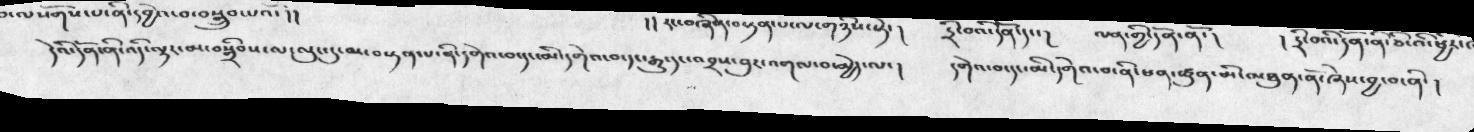དེའི་དོན་ནི་འདི་ལྟར་མ་བསྒྲིབས་ལ་ལུང་དུ་མ་བསྟན་པ་ནི་དགེའ་བ་དང་མི་དགེའ་བ་དང་རྒྱུ་དང་འབྲས་བུར་འགལ་བ་མྱེད་ལ།   དགེའ་བ་དང་མི་དགེའ་བ་ནི་ཕན་ཚུན་མི་མཐུན་ནོ་ཞེས་བྱ་བ་ནི་།
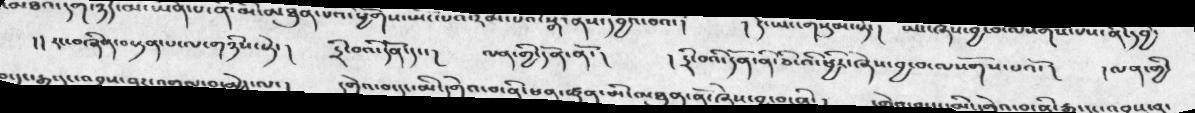།། རང་བཞིིན་བསྟན་པ་ལ་གཉིས་སྟེ་།   དྲི་བའི་དོན་དང་།   ལན་གྱི་དོན་ནོ་།    ། དྲི་བའི་དོན་ནི་ཅི་འི་ཕྱིར་ཞེས་བྱ་བ་ལསོགས་པའོ་།  །ལན་གྱི་
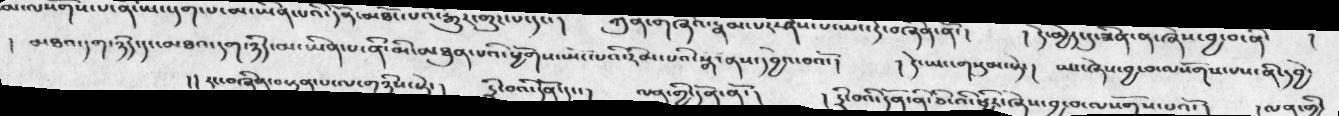། མཐའ་དག་ཉིད་དང་མཐའ་དག་ཉིད་མ་ཡིན་པ་ནི་མི་མཐུན་པའི་ཕྱོགས་ཡོང་པའི་རིམ་པའི་སྒོ་ནས་དབྱེའ་བའོ་།  ། དེ་ཡང་གསུམ་སྟེ་།  སྤང་ཞེས་བྱ་བ་ལསོགས་པས་ནི་དབྱེ་
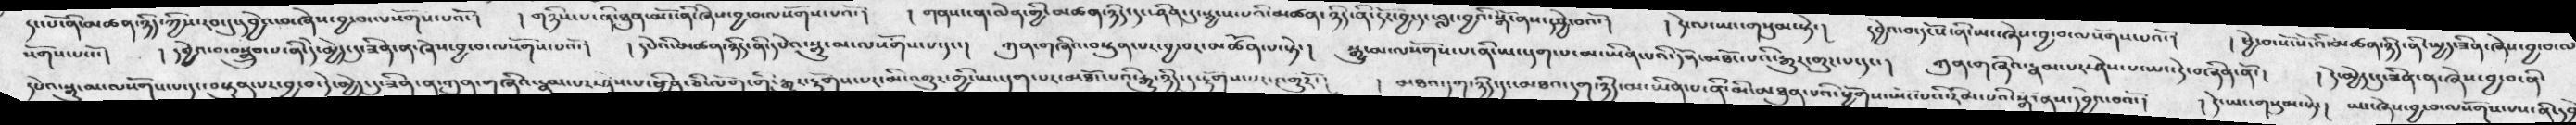སོགས་པའོ་།  ། དབྱེའ་བ་བསྒྲུབ་པ་ནི་དེ་མྱེད་དུ་ཟིན་ན་ཞེས་བྱ་བ་ལསོགས་པའོ་།  ། དཔེའི་མཚན་ཉིད་ནི་དཔེའ་སྒྱུ་མ་ལསོགས་པ་དང་། ཀུན་གཞིའ་བསྟུན་པར་བྱ་བར་མཚོན་པ་སྟེ་།  སྒྱུ་མ་ལསོགས་པ་ནི་ཡང་དག་པ་མ་ཡིན་པའི་དོན་མཐོང་པའི་རྒྱུར་གུར་པ་དང་།  ཀུན་གཞིའ་རྣམ་པར་ཤེས་པ་ཡང་དེ་བཞིན་ནོ་།  ། དེ་མྱེད་དུ་ཟིན་ན་ཞེས་བྱ་བ་ནི་
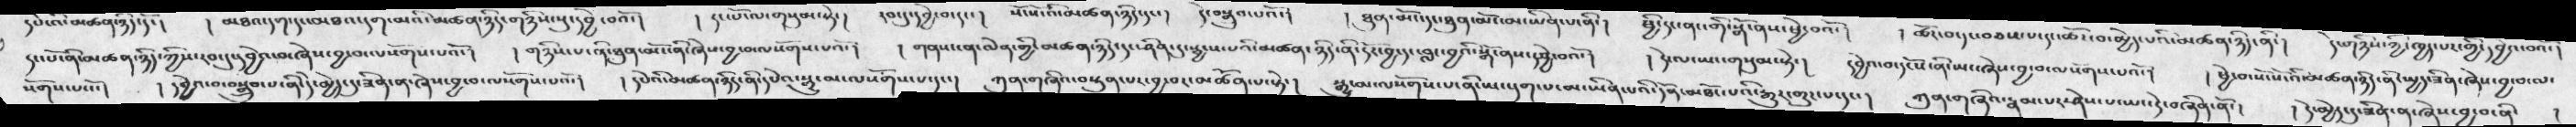དང་པོ་ནི་མཚན་ཉིད་ཀྱིས་རབ་དུ་དབྱེའ་མཞེས་བྱ་བ་ལསོགས་པའོ་།  ། གཉིས་པ་ནི་ཐུན་མོང་ནི་ཞེས་བྱ་བ་ལསོགས་པའོ་།  ། གནས་ན་ལེན་གྱི་མཚན་ཉིད་དང་ཤིན་ཏུ་སྐྱངས་པའི་མཚན་ཉིད་ནི་ཏོང་བྱ་དང་བླ་བྱའི་སྒོ་ནས་དབྱེ་བའོ་།  ། དེ་ལ་ཡང་གསུམ་སྟེ་།  །བྱེའ་བ་དངོས་ཡང་ཞེས་བྱ་བ་ལསོགས་པའོ་།  ། ཕྱེ་བ་སོ་སོ་འི་མཚན་ཉིད་ནི་སྤྱད་ཟིན་ཞེས་བྱ་བ་ལ་
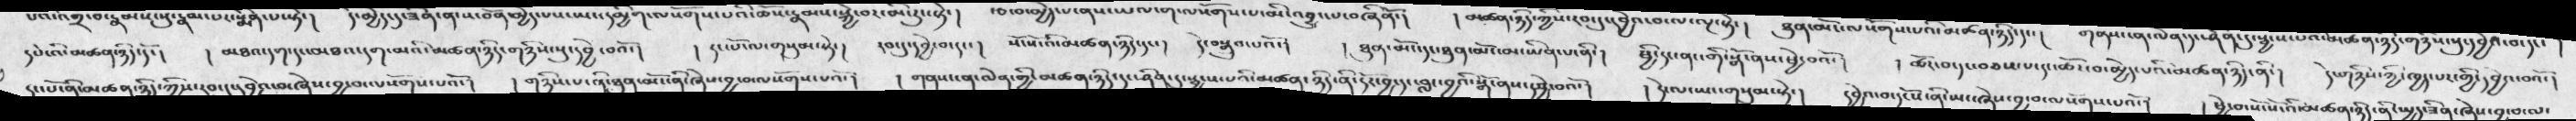དཔེའི་མཚན་ཉིད་དོ་།  ། མཐའ་དག་དང་མཐའ་དག་མའི་མཚན་ཉིད་གཉིས་སུ་དབྱེ་བའོ་།  ། དང་པོ་ལ་གསུམ་སྟེ་།  དབང་དུ་དབྱེ་བ་དང་།  སོ་སོ་འི་མཚན་ཉིད་དང་།  དེ་བསྒྲུབ་པའོ་།  ། ཐུན་མོང་དང་ཐུན་མོང་མ་ཡིན་པ་ནི་།  ཕྱི་དང་ནང་གི་སྒོ་ནས་ཕྱེ་བའོ་།  ། ཚོར་བ་དང་བཅས་པ་དང་ཚོར་བ་མྱེད་པའི་མཚན་ཉིད་ནི་།   དེ་གཉིས་ཀྱི་ཁྱད་པར་གྱི་དབྱེའ་བའོ་།
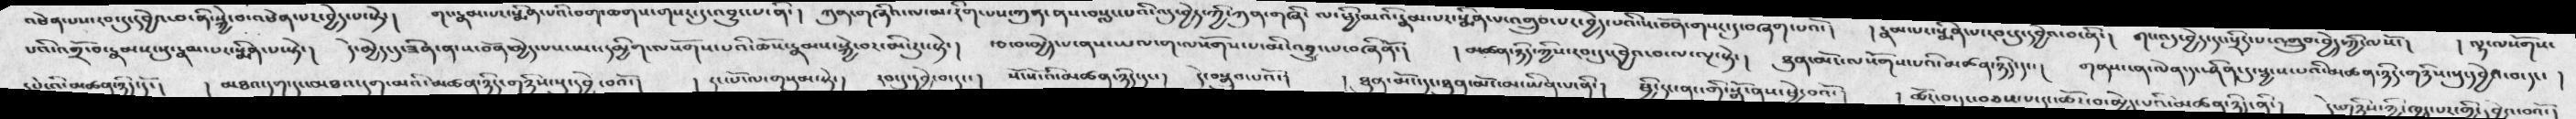པའི་འགྲོ་བ་རྣམས་སུ་རྣམ་པར་སྨིན་པ་སྟེ་།    དེ་མྱེད་དུ་ཟིན་ན་ས་བོན་མྱེད་པས་ཡང་དམྱིག་ལསོགས་པའི་ཆོས་རྣམས་སྐྱེ་བར་མི་རུང་སྟེ་།   རྩ་བ་མྱེད་པ་ནས་ཡལ་ག་ལསོགས་པ་མི་འབྱུང་པ་བཞིནོ་།   ། མཚན་ཉིད་གྱིས་རབ་ངུ་དབྱེའ་བ་ལ་ལྔ་སྟེ་།   ཐུན་མོང་ལསོགས་པའི་མཚན་ཉིད་དང་།   གནས་ངན་ལེན་དང་ཤིན་དུ་སྦྱངས་པའི་མཚན་ཉིད་གཉིས་སུ་དབྱེའ་བ་དང་  །
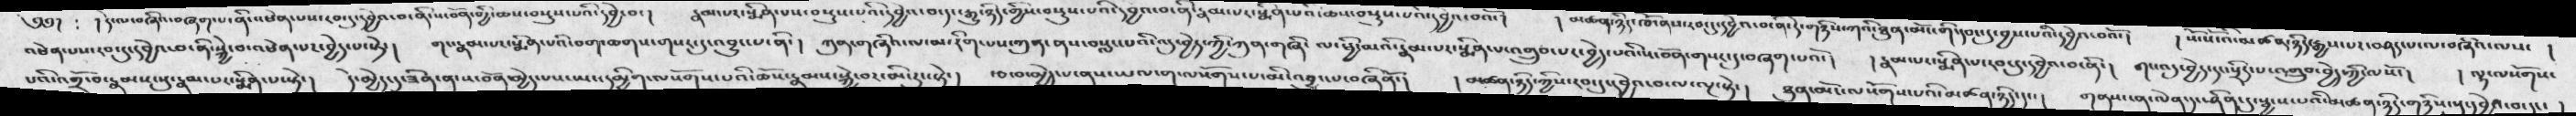འཕེན་པས་དབང་དུ་དབྱེའ་བ་ནི་སྐྱེ་བ་འཕེན་པར་བྱེད་པ་སྟེ་།  གང་རྣམ་པར་སྨིན་པའི་བག་ཆགས་གསར་དུ་འབྱུང་པ་ནི་།  ཀུན་གཞིའ་ལ་མ་རིག་པས་ཀུན་ནས་བསླང་པའི་འདུ་བྱེད་ཀྱི་ཀུན་གཞི་ལ་ཕྱི་མའི་རྣམ་པར་སྨིན་པར་འགྲུབ་པར་བྱེདཔའི་ས་བོན་གསར་དུ་བཞག་པའོ་།   ། རྣམ་པར་སྨིན་པ་རབ་དུ་དབྱེའ་བ་ནི་།  གང་འདུ་བྱེད་དང་སྲིད་པ་འགྲུབ་བྱེད་ཀྱི་ལསོ་།   ། ལྷ་ལསོགས་
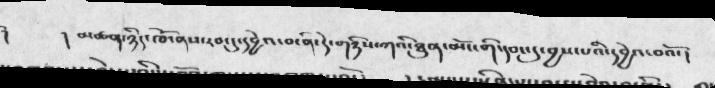།   མཚན་ཉིད་ཁོ་ནས་རབ་དུ་དབྱེའ་བ་ནི་དེ་གཉིས་ཀའི་ཐུན་མོང་གི་དབང་དུ་བྱས་པའི་དབྱེའ་བའོ་།
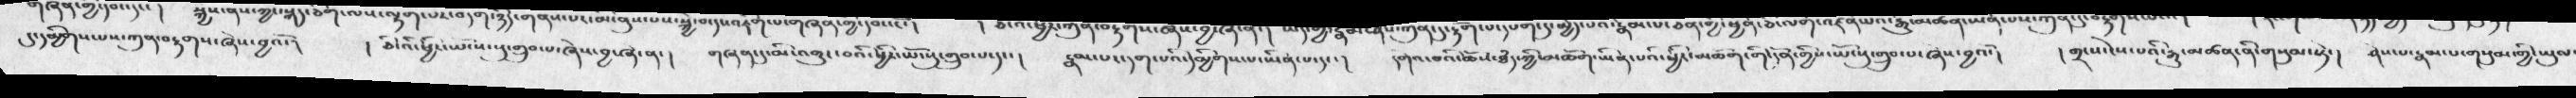དུ་དམྱིགས་པས་ཀུན་བརྟགས་ཞེས་བྱའོ་།    ། ཅི་འི་ཕྱིར་ཡོངས་སུ་གྲུབ་པ་ཞེས་བྱ་ཞེ་ན་།   གཞན་དུ་མི་འགྱུར་བའི་ཕྱིར་ཡོངསུ་གྲུབ་པ་དང་།  རྣམ་པར་དག་པའི་དམྱིགས་པ་ཡིན་པ་དང་།  དགེའ་བའི་ཆོས་ཐཾད་ཀྱི་མཆོག་ཡིན་པའི་ཕྱིར་མཆོག་གི་དོན་གྱིས་ཡོངསུ་གྲུབ་པ་གྲུབ་པ་ཞེས་བྱའོ་།   །  གྲངས་ངེས་པའི་རྒྱུ་མཚན་ནི་གསུམ་སྟེ་།  ཤེས་པ་རྣམ་པ་གསུམ་གྱི་ཡུལ་
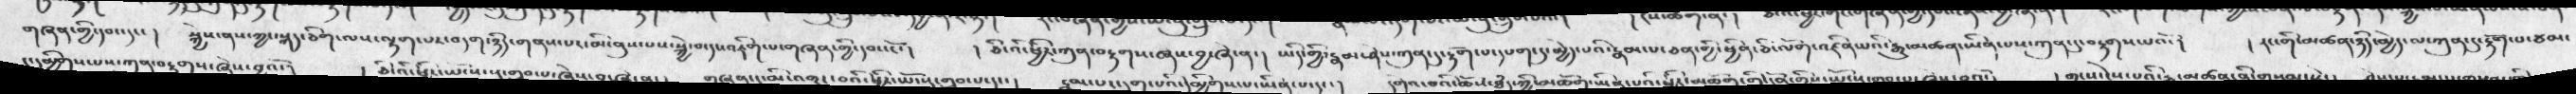གཞན་གྱི་དབང་དང་།   སྐྱེས་ནས་ཀྱང་སྐད་ཅིག་ལས་ལྷག་པར་བདག་ཉིད་གནས་པར་མི་ནུས་པས་སྐྱེ་བ་དང་འཇིག་པ་གཞན་གྱི་དབང་ངོ་།   ། ཅི་འི་ཕྱིར་ཀུན་བརྟགས་ཞས་བྱ་ཞེ་ན་།  ཡིད་གྱི་རྣམ་ཤེས་ཀུན་དུ་རྟོག་པ་དཔག་དུ་མྱེད་པའི་རྣམ་པ་ཅན་དུ་མྱེད་པའི་རྣམ་པ་ཅན་གྱི་ཕྱིན་ཅི་ལོག་འཛིན་པའི་རྒྱུ་མཚན་ཡིན་པས་ཀུན་དུ་བརྟགས་པའོ་།  ། རང་གི་མཚན་ཉིད་མྱེད་ལ་ཀུན་དུ་རྟོག་པ་ཙམ་
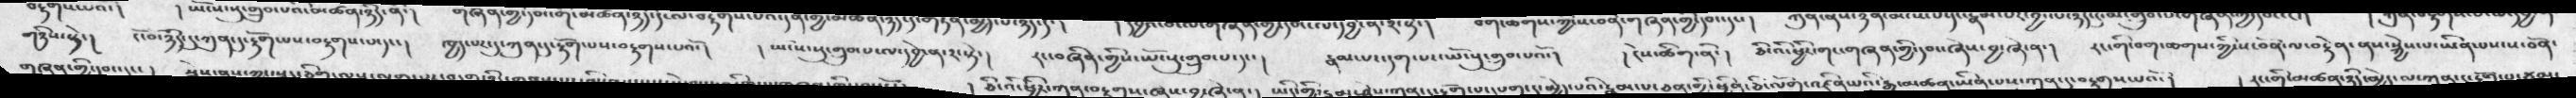གཉིས་སྟེ་།  ངོ་བོ་ཉིད་དུ་ཀུན་དུ་རྟོག་པས་བརྟགས་པ་དང་།   ཁྱད་པར་དུ་ཀུན་དུ་རྟོག་པས་བརྟགས་པའོ་།  ཡོངས་སུ་གྲུབ་པ་ལ་དབྱེ་ན་༢་སྟེ་།  རང་བཞིན་གྱིས་ཡོངསུ་གྲུབ་པ་དང་།  རྣམ་པར་དག་པར་ཡོངསུ་གྲུབ་པའོ་།  ། ངེས་ཚིག་ནི་།  ཅི་འི་ཕྱིར་གང་གཞན་གྱི་དབང་ཞེས་བྱ་ཞེ་ན་།  རང་གི་བག་ཆགས་ཀྱི་ས་བོན་ལ་བརྟེན་ནས་སྐྱེས་པ་ཡིན་པས་ས་བོན་
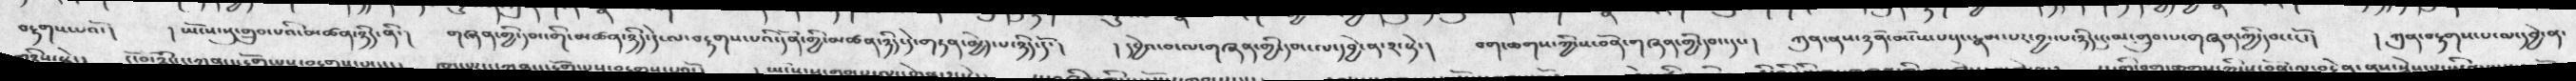བརྟགས་པའོ་།    །  ཡོངས་སུ་གྲུུབ་པའི་མཚན་ཉིད་ནི་།   གཞན་གྱི་དབང་གི་མཚན་ཉིད་དེ་ལ་བརྟགས་པའི་དོན་གྱི་མཚན་ཉིད་དེ་གཏན་མྱེད་པ་ཉིད་དོ་།   ། དབྱེའ་བ་ལ་གཞན་གྱི་དབང་ལ་དབྱེ་ན་༢་སྟེ་།   བག་ཆགས་ཀྱི་ས་བོན་གཞན་གྱི་དབང་དང་།   ཀུན་ནས་ཉོན་མོངས་པ་དང་རྣམ་པར་བྱང་པ་ཉིད་དུ་མ་གྲུབ་པ་གཞན་གྱི་དབང་ངོ་།    ། ཀུན་བརྟགས་པ་ལ་དབྱེ་ན་
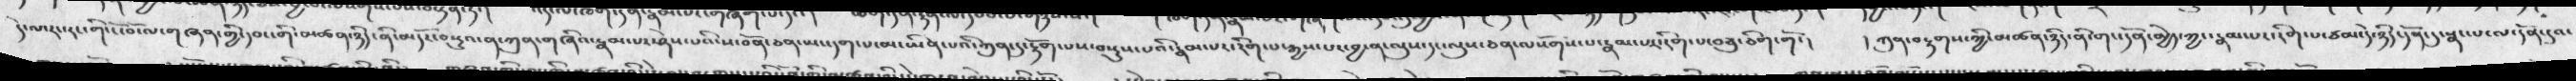དེ་ལ་རང་རང་གི་ངོ་བོ་ལ་གཞན་གྱི་དབང་གི་མཚན་ཉིད་ནི་མདོར་བསྡུའ་ན་ཀུན་གཞིའ་རྣམ་པར་ཤེས་པའི་ས་བོན་ཅན་ཡང་དག་པ་མ་ཡིན་པའི་ཀུན་དུ་རྟོག་པས་བསྡུས་པའི་རྣམ་པར་རིག་པ་རྒྱས་པར་བྱ་ན་ལུས་དང་ལུས་ཅན་ལསོགས་པ་རྣམ་པར་རིག་པ་བཅུ་ཅིག་གོ་།   ། ཀུན་བརྟགས་ཀྱི་མཚན་ཉིད་ནི་གང་དོན་མྱེད་ཀྱང་རྣམ་པར་རིག་པ་ཙམ་དེ་ཉིད་དོན་དུ་སྣང་པ་ལ་དོན་དུའང་
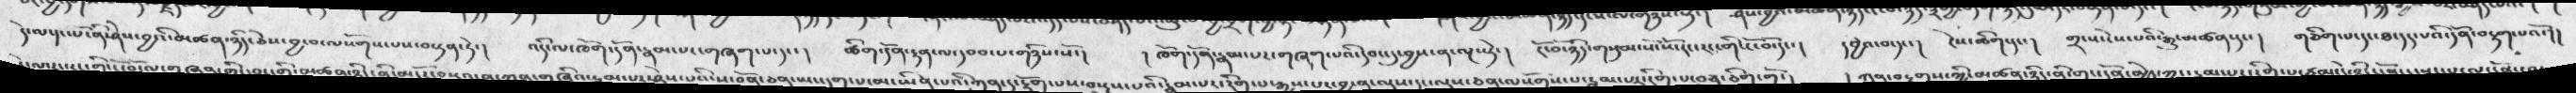དེ་ལ་དང་པོ་ནི་ཤེས་བྱའི་མཚན་ཉིད་ཅེས་བྱ་བ་ལསོགས་པས་བསྟན་ཏེ་།  འདི་ལ་ཁོག་དོན་རྣམ་པ་གཞག་པ་དང་།  ཚིག་དོན་རྟན་ལ་དབབ་པ་གཉིས་སོ་།  ། ཁོག་དོན་རྣམ་པར་གཞག་པའི་དབང་དུ་བྱས་ན་ལྔ་སྟེ་།  ངོ་བོ་ཉིད་གསུམ་སོ་ཡོད་རང་གིས་མོད་།   དབྱེའ་བ་དང་།  ངེས་ཚིག་དང་།  ༢་པ་ངེས་པའི་རྒྱུ་མཚན་དང་།  གཅིག་པ་དང་ཐ་དད་པའི་དོན་བསྟག་པའོ་།།
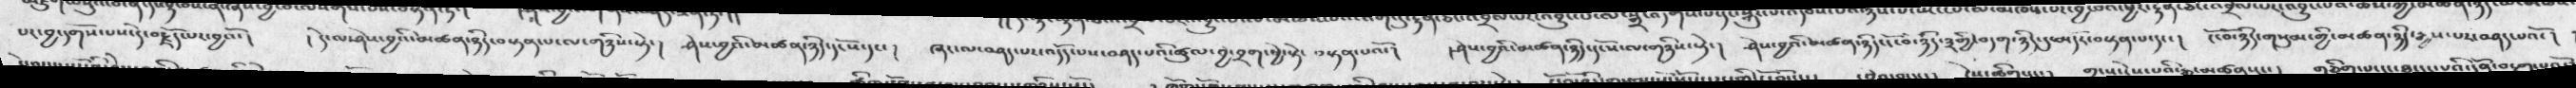པར་བྱ་དགོས་པས་དེ་བརྗོད་པར་བྱའོ་།  ། དེ་ལ་ཤེས་བྱའི་མཚན་ཉིད་བསྟན་པ་ལ་གཉིས་སྟེ་།  ཤེས་བྱའི་མཚན་ཉིད་དངོས་དང་།  ཞར་ལ་བཤད་པ་འདོད་པས་བཤད་པའི་ཚུལ་བྱེ་བྲག་ཕྱེ་སྟེ་བསྟན་པའོ་།   ། ཤེས་བྱའི་མཚན་ཉིད་དངོས་ལ་གཉིས་སྟེ་།  ཤེས་བྱའི་མཚན་ཉིད་ངོ་བོ་ཉིད་༣གྱི་བདག་ཉིད་དུ་མདོར་བསྟན་པ་དང་།  ངོ་བོ་ཉིད་གསུམ་གྱི་མཚན་ཉིད་རྒྱས་པར་བཤད་པའོ་།
